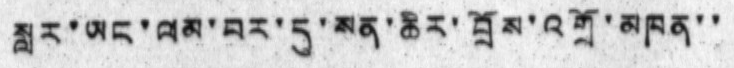སླར་ཡང་ལམ་བར་དུ་སན་ཆིར་བྲོས་འགྲོ་མཁན་་
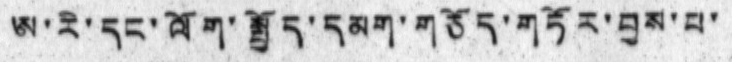ཨ་རི་དང་ལོག་སྤྱོད་དམག་གཅོད་གཏོར་བྱས་པ་
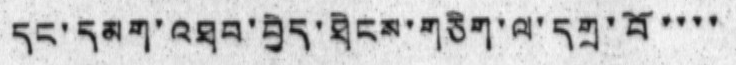དང་དམག་འཐབ་བྱེད་ཐེངས་གཅིག་ལ་དགྲ་བོ་་་་
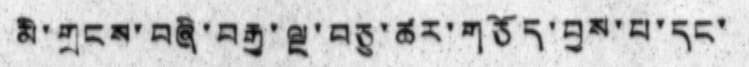མི་གྲངས་བཞི་བརྒྱ་ལྔ་བཅུ་ཚར་གཅོད་བྱས་པ་དང་
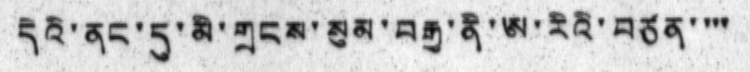དེའི་ནང་དུ་མི་གྲངས་མུམ་བརྒྱ་ནི་ཨ་རིའི་བཙན་ ་་་
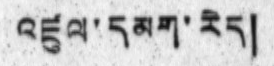འཛུལ་དམག་རེད།
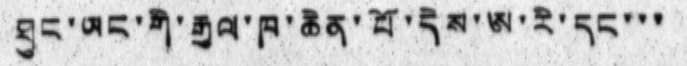ཐུང་ཡང་གི་རྒྱལ་ཁ་ཆེན་པོ་དེས་ཨ་རི་དང་་་
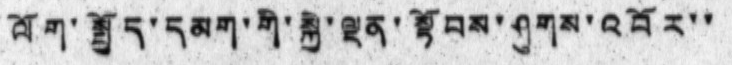ལོག་སྤྱོད་དམག་གི་སྐྱེ་ལྡན་སྟོབས་ཤུགས་འབོར་་
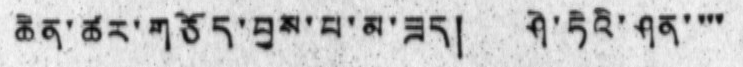ཆེན་ཚར་གཅོད་བྱས་པ་མ་ཟད། ཤེ་ཏེའི་ཤན་ ་་་
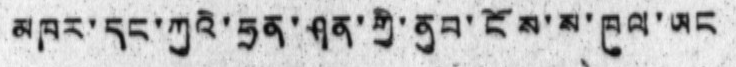མཁར་དང་ཀུའི་ཧྲན་ཤན་གྱི་ནུབ་ངོས་ས་ཁུལ་ཡང
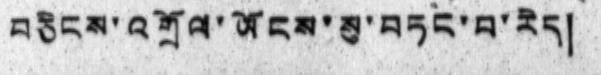བཅིངས་འགྲོལ་ཡོངས་སུ་བཏང་བ་རེད།
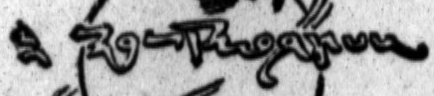༄༅། སྐབས་དོན་བཤད་པ།
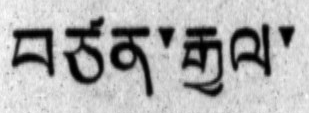བཙན་རྒྱལ་
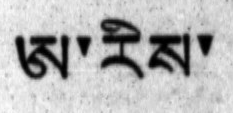ཨ་རིས་
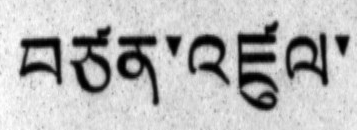བཙན་འཛུལ་
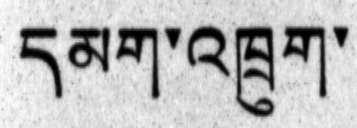དམག་འཁྲུག་
